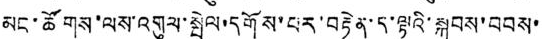མང་ཚོགས་ལས་འགུལ་སྤེལ་དགོས་པར་བརྟེན་ད་ལྟའི་སྐབས་བབས་
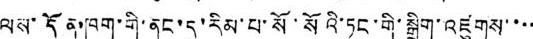ལས་དོན་ཁག་གི་ནང་དུ་རིམ་པ་སོ་སོའི་ཏང་གི་སྒྲིག་འཛུགས་་་་
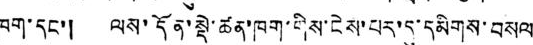ཁག་དང་། ལས་དོན་སྡེ་ཚན་ཁག་གིས་ངེས་པར་དུ་དམིགས་བསལ
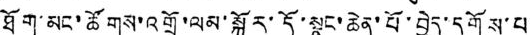ཐོག་མང་ཚོགས་འགྲོ་ལམ་སྐོར་དོ་སྣང་ཆེན་པོ་བྱེད་དགོས་པ་
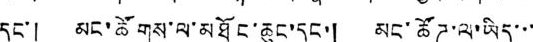དང་། མང་ཚོགས་ལ་མཐོང་ཆུང་དང་། མང་ཚོཊ་ལ་ཡིད་་་
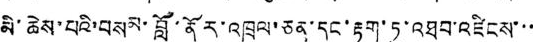མི་ཆེས་པའི་བསམ་བློ་ནོར་འཁྲུལ་ཅན་དང་རྟག་ཏུ་འཐབ་འཛིངས་་་
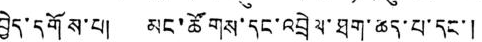བྱེད་དགོས་པ། མང་ཚོགས་དང་འབྲེལ་ཐག་ཆད་པ་དང་།
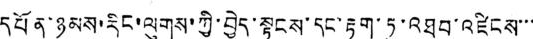དཔོན་ཉམས་རིང་ལུགས་ཀྱི་བྱེད་སྟངས་དང་རྟག་ཏུ་འཐབ་འཛིངས་་་
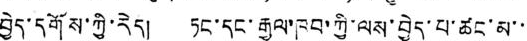བྱེད་དགོས་ཀྱི་རེད། ཏང་དང་རྒྱལ་ཁབ་ཀྱི་ལས་བྱེད་པ་ཚང་མ་་་
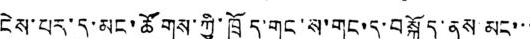ངེས་པར་དུ་མང་ཚོགས་ཀྱི་ཁྲོད་གང་ས་གང་དུ་བསྐྱོད་ནས མང་་་
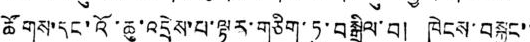ཚོགས་དང་འོ་ཆུ་འདྲེས་པ་ལྟར་གཅིག་ཏུ་བསྒྲིལ་བ། ཁེངས་བསྐྱུང་་
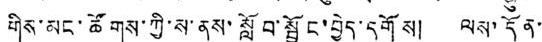གིས་མང་ཚོགས་ཀྱི་ས་ནས་སློབ་སྦྱོང་བྱེད་དགོས། ལས་དོན་
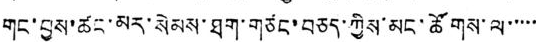གང་བྱས་ཚང་མར་སེམས་ཐག་གཙང་བཅད་ཀྱིས་མང་ཚོགས་ལ་་་་་
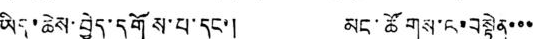ཡིད་ཆེས་བྱེད་དགོས་པ་དང་། མང་ཚོགས་ལ་བསྟེན་་་
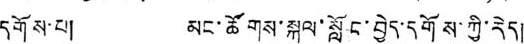དགོས་པ། མང་ཚོགས་སྐུལ་སློང་བྱེད་དགོས་ཀྱི་རེད།
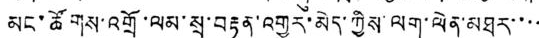མང་ཚོགས་འགྲོ་ལམ་སྲ་བརྟན་འགྱུར་མེད་ཀྱིས་ལག་ལེན་མཐར་་་་
